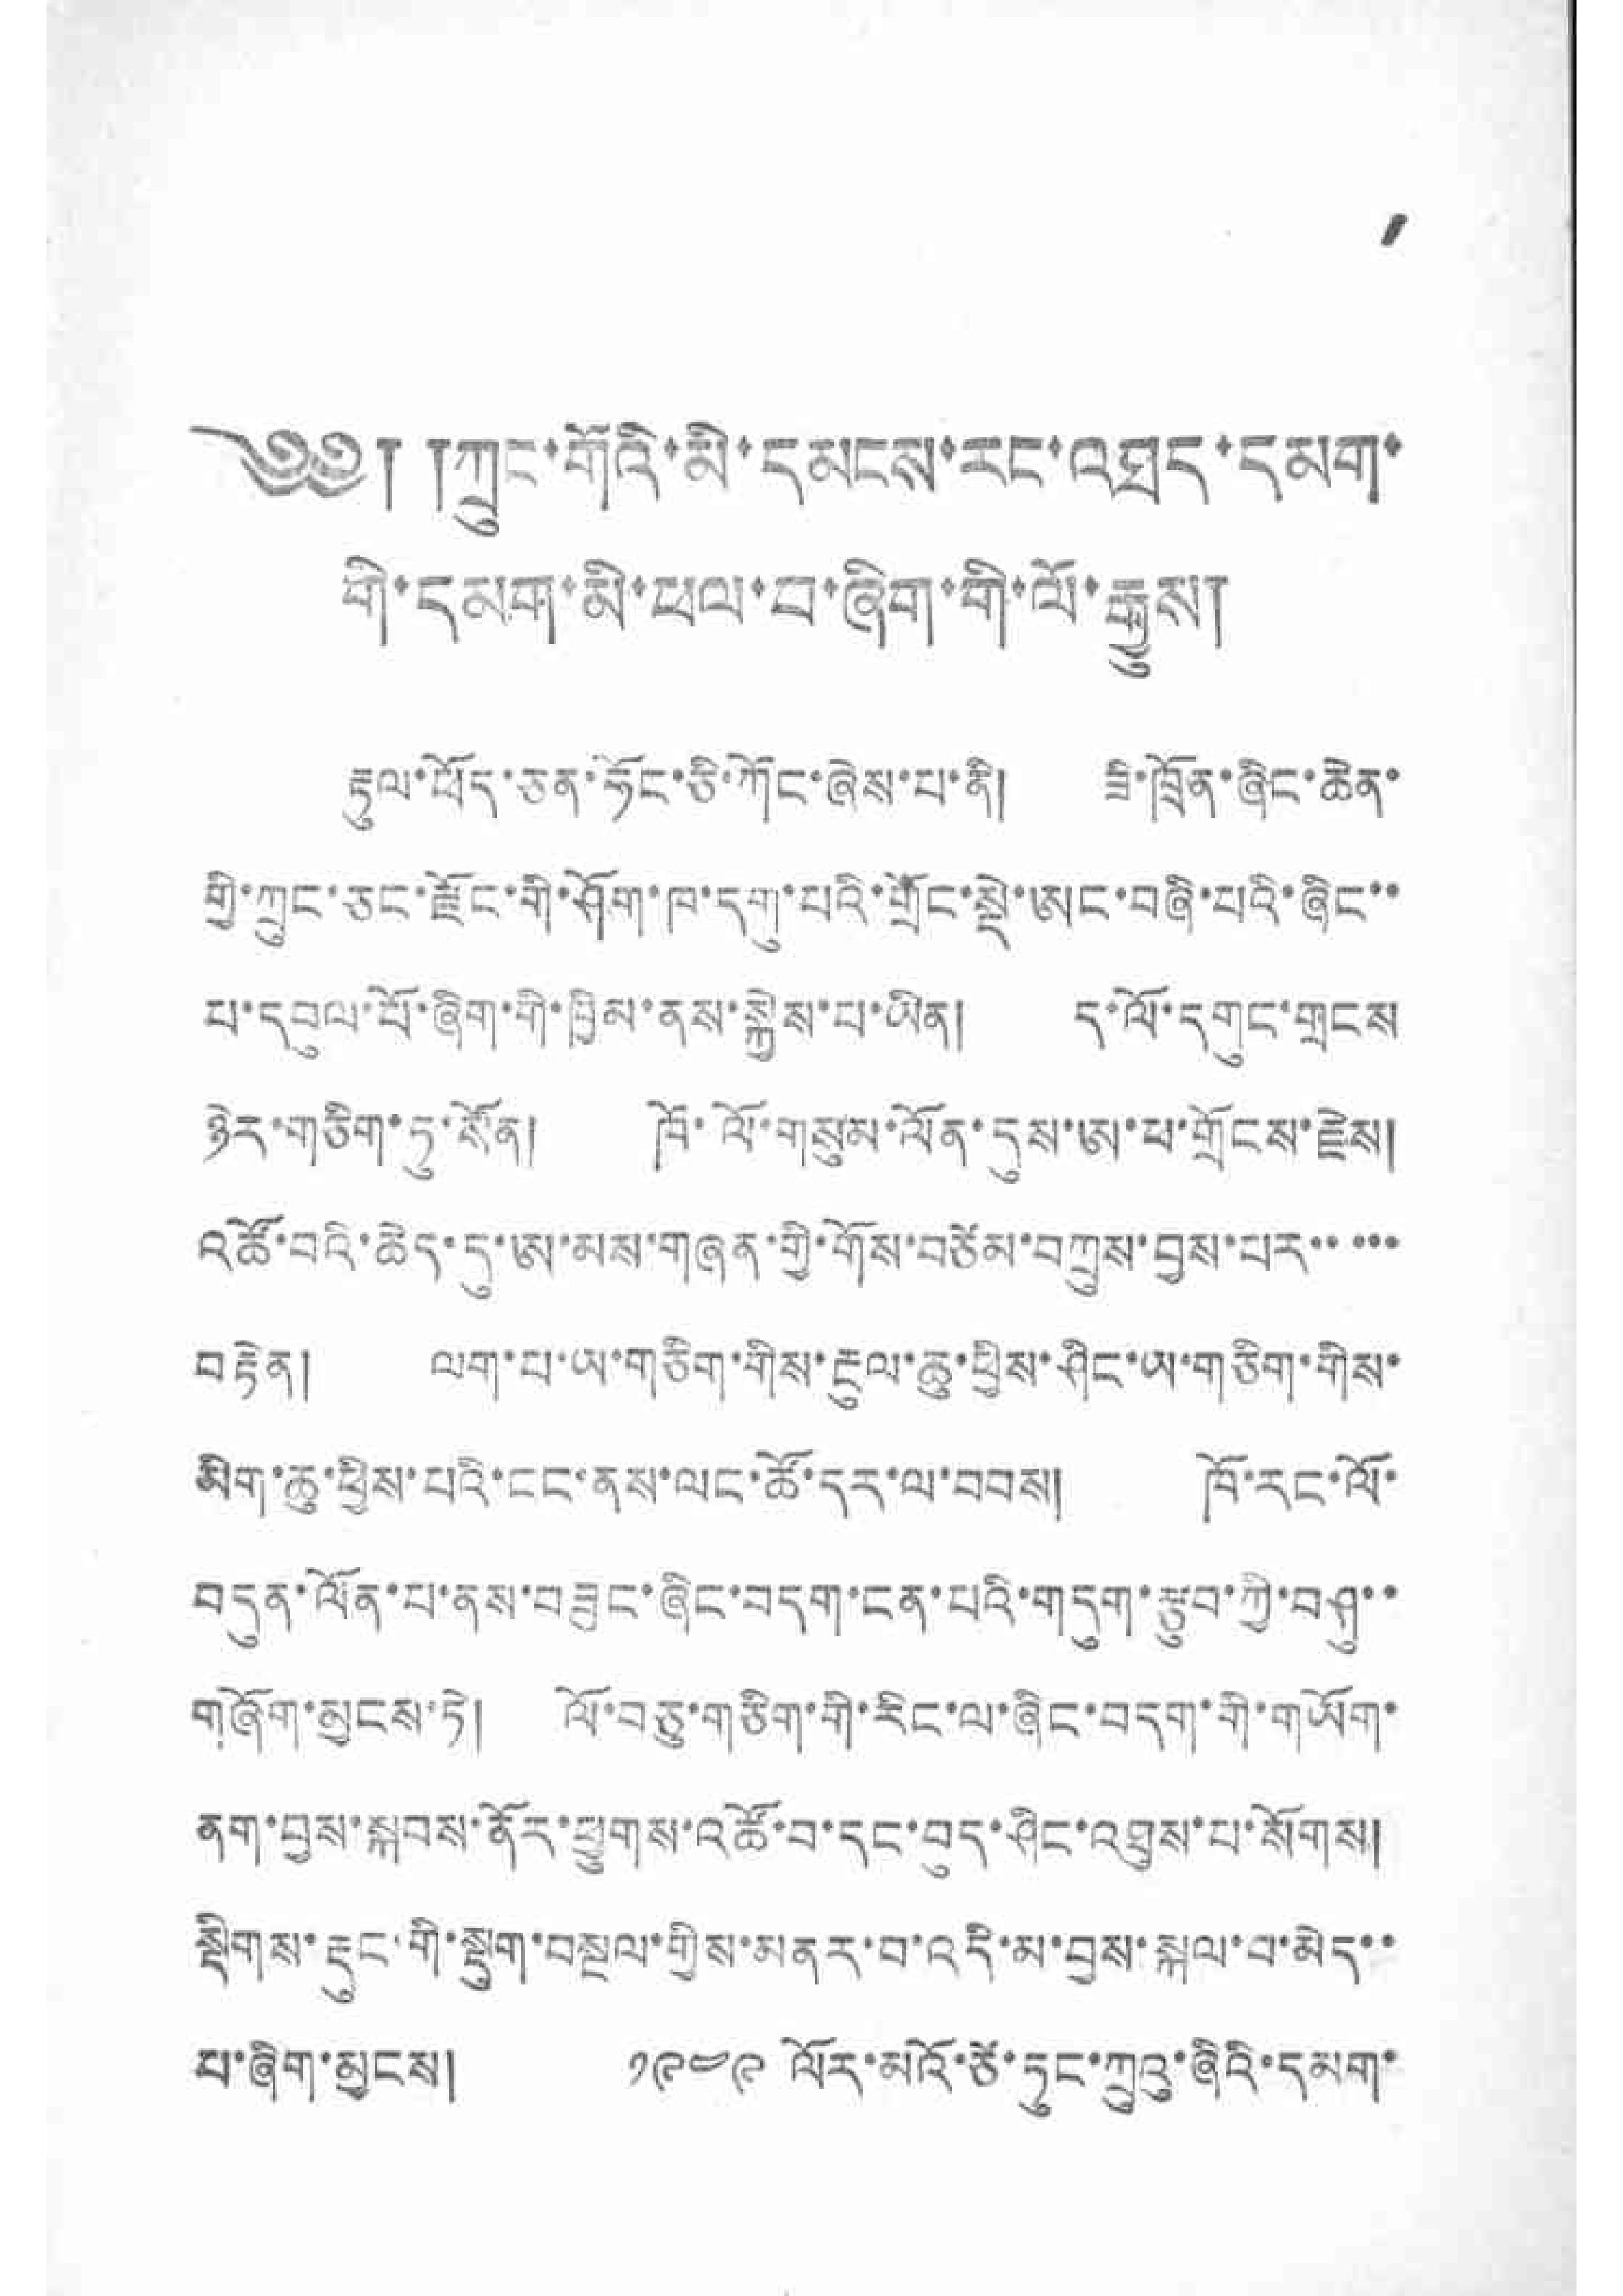1
༄༅། །ཀྲུང་གོའི་མི་དམངས་རང་འཐད་དམག་
གི་དམག་མི་ཕལ་བ་ཞིག་གི་ལོ་རྒྱུས།
རྟུལ་ཕོད་ཅན་ཧོང་ཅི་ཀོང་ཞེས་པ་ནི། ཟི་ཁྲོན་ཞིང་ཆེན་
གྱི་ཀྲུང་ཅང་ཇོང་གི་ཤོག་ཁ་དག་པའི་གྲོང་སྡེ་ཨང་བཞི་པའི་ཞིང་་
པ་དབུལ་པོ་ཞིག་གི་ཁྱིམ་ནས་སྐྱེས་པ་ཡིན། ད་ལོ་དགང་གྲངས་
ཉེད་གཅིག་ཏུ་སོན། ཁོ་ལོ་གསུམ་ལོན་དུས་ཨ་པ་གྲོངས་རྗེས།
འཚོ་བའི་ཆེད་དུ་ཨ་མས་གཞན་གྱི་གོས་བཙོམ་བཀྲས་བྱས་པར་་་་་
བརྟེན། ལག་པ་ཡ་གཅིག་གིས་རྔུལ་ཆུ་ཕྱིས་ཤིང་ཡ་གཅིག་གིས་
མིག་ཆུ་ཕྱིས་པའི་ངང་ནས་ལང་ཚོ་དར་ལ་བབས། ཁོ་རང་ལོ་
བདུན་ལོན་པ་ནས་བཟུང་ཞིང་བདག་ངན་པའི་གདུག་རྩུབ་ཀྱི་བཤུ་་
གཞོག་མྱངས་ཏེ། ལོ་བཅུ་གཅིག་གི་རིང་ལ་ཞིང་བདག་གི་གཡོག་
ནག་བྱས་སྐབས་ནོད་ཕྱུགས་འཚོ་བ་དང་བུད་ཤིང་འཐུས་པ་སོགས།
སྡིགས་རྡུང་གི་སྡུག་བསྔལ་གྱིས་མནར་བ་འདི་མ་བྱས་སྐལ་བ་མེད་་
པ་ཞིག་མྱངས། ༡༩༤༩་ ལོར་མའོ་ཙེ་ཏུང་ཀྲུའུ་ཞིའི་དམག་
